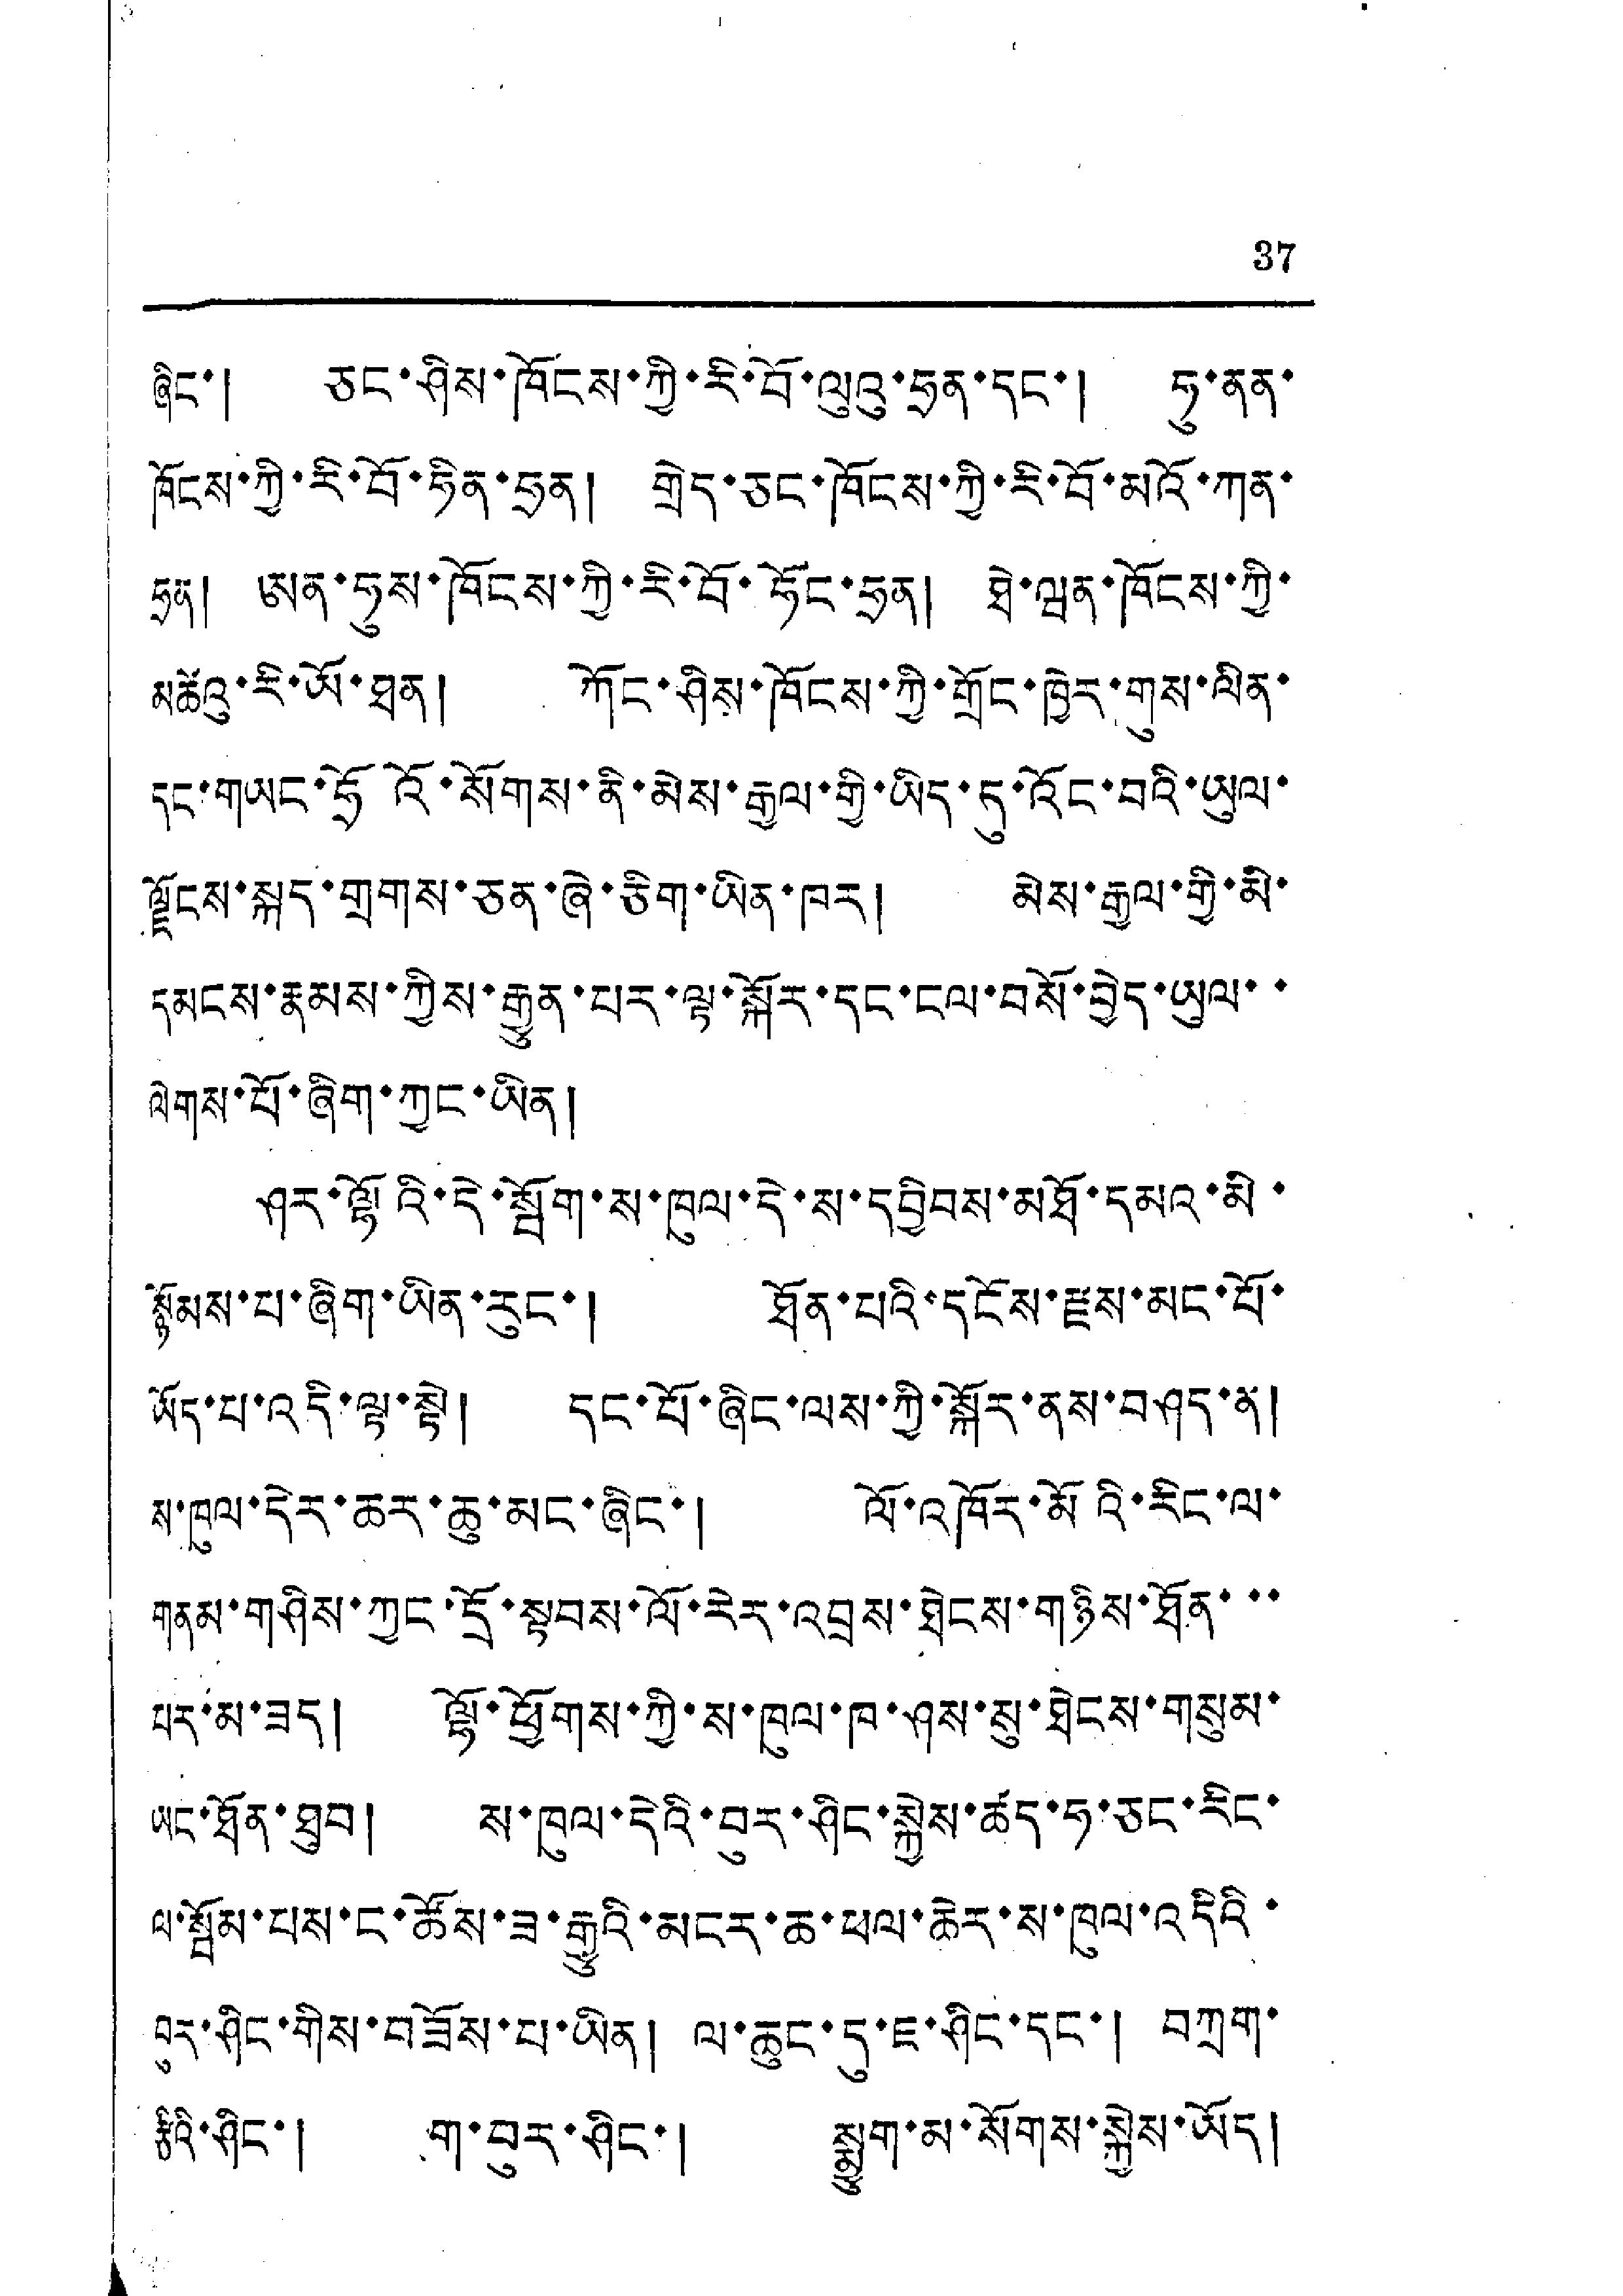37
ཞིང་། ཅང་ཤིས་ཁོངས་ཀྱི་རི་བོ་ལུའུ་ཧྲན་དང་། ཧུ་ནན་
ཁོངས་ཀྱི་རི་བོ་ཧིན་ཧྲན། གྲེད་ཅང་ཁོངས་ཀྱི་རི་བོ་མའོ་ཀན་
ཧྲན། ཨན་ཧུས་ཁོངས་ཀྱི་རི་བོ་ཧོང་ཧྲན། ཐེ་ཝན་ཁོངས་ཀྱི་
མཚོའུ་རི་ཡོ་ཐན། ཀོང་ཤིས་ཁོངས་ཀྱི་གྲོང་ཁྱེར་གུས་ལིན་
དང་གཡང་ཧྲོའོ་སོགས་ནི་མེས་རྒྱལ་གྱི་ཡིད་དུ་འོང་བའི་ཡུལ་
ལྗོངས་སྐད་གྲགས་ཅན་ཞེ་ཅིག་ཡིན་ཁར། མེས་རྒྱལ་གྱི་མི་
དམངས་རྣམས་ཀྱིས་རྒྱུན་པར་ལྟ་སྐོར་དང་ངལ་བསོ་བྱེད་ཡུལ་་
ལེགས་པོ་ཞིག་ཀྱང་ཡིན།
ཤར་ལྟོའི་དེ་སྦོག་ས་ཁུལ་དེ་ས་དབྱིབས་མཐོ་དམའ་མི་
སྙོམས་པ་ཞིག་ཡིན་རུང་། ཐོན་པའི་དངོས་རྫས་མང་པོ་
ཡོད་པ་འདི་ལྟ་སྟེ། དང་པོ་ཞིང་ལས་ཀྱི་སྐོར་ནས་བཤད་ན།
ས་ཁུལ་དེར་ཆར་ཆུ་མང་ཞིང་། ལོ་འཁོར་མོའི་རིང་ལ་
གནམ་གཤིས་ཀྱང་དྲོ་སྟབས་ལོ་རེར་འབྲས་ཐེངས་གཉིས་ཐོན་་་
པར་མ་ཟད། ལྷོ་ཕྱོགས་ཀྱི་ས་ཁུལ་ཁ་ཤས་སུ་ཐེངས་གསུམ་
ཡང་ཐོན་ཐུབ། ས་ཁུལ་དེའི་བུར་ཤིང་སྐྱེས་ཚད་ཧ་ཅང་རིང་
ལ་སྦོམ་པས་ང་ཚོས་ཟ་རྒྱུའི་མངར་ཆ་ཕལ་ཆེར་ས་ཁུལ་འདིའི་
བུར་ཤིང་གིས་བཟོས་པ་ཡིན། ལ་ཆུང་དུ་ཇ་ཤིང་དང་། བཀྲག་
རྩིའི་ཤིང་། ག་བུར་ཤིང་། སྨྱུག་མ་སོགས་སྐྱེས་ཡོད།
